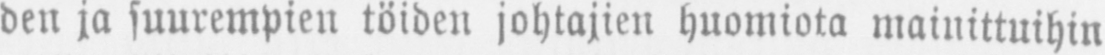den ja suurempien töiden johtajien huomiota mainittuihin
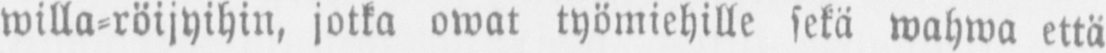willa-röijyihin, jotka owat työmiehille sekä wahwa että
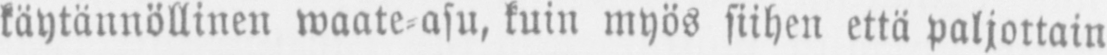käytännöllinen waate asu, kuin myös siihen että paljoitain
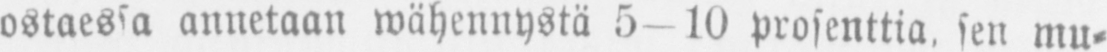ostaessa annetaan wähennystä 5—10 prosenttia, sen mu-
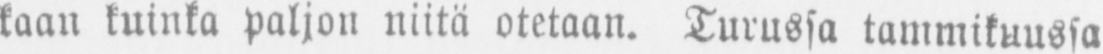kaan kuinka paljon niitä otetaan. Turussa tammikuussa
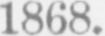1868.
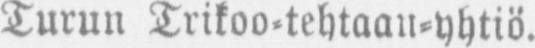Turun Trikoo-tehtaan-yhtiö.
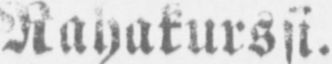Rahakurssi.
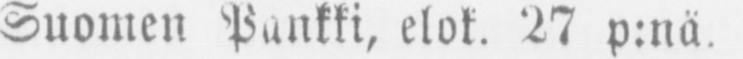Suomen Pankki, elok. 27 p:nä.
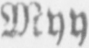Myy
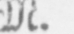S. M.
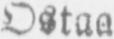Ostaa
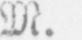S. M.
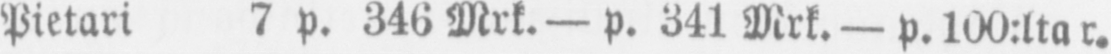Pietari 7 p. 346 Mrk. — p. 341 Mrk. — p. 100:lta r.
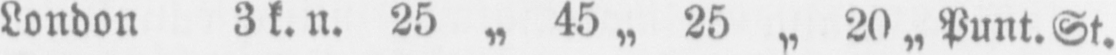London 3 k.n. 25 „ 45 „ 25 „ 20„Punt.St.
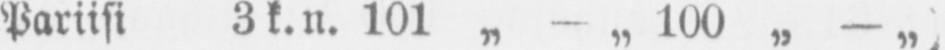Pariisi 3k.n. 101 „ - „ 100˶ -˶
